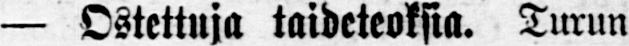— Ostettuja taideteoksia. Turun
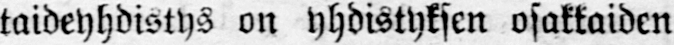taideyhdistys on yhdistyksen osakkaiden
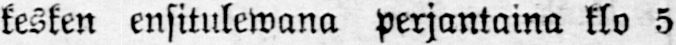kesken ensitulewana perjantaina klo 5
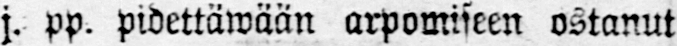j. pp. pidettäwään arpomiseen ostanut
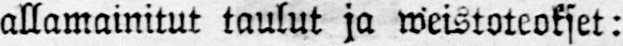allamainitut taulut ja weistoteokset:
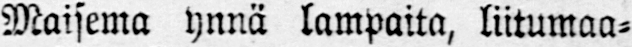Maisema ynnä lampaita, liitumaa-
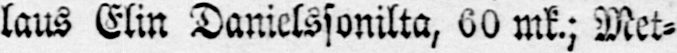laus Elin Danielssonilta, 60 mk.; Met-
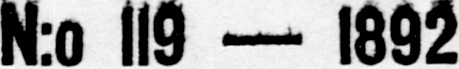N:o 119 — 1892
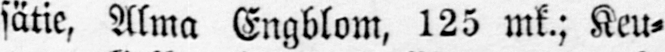sätie, Alma Engblom, 125 mk.; Keu-
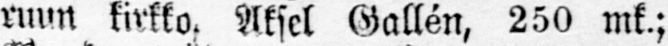ruun kirkko. Aksel Gallén, 250 mk.;
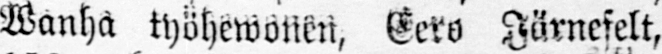Wanha työhewonen, Eero Järnefelt,
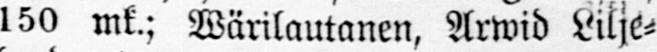150 mk.; Wärilautanen, Arwid Litje-
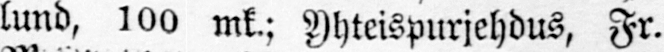lund, 100 mk.: Yhteispurjehdus, Fr.
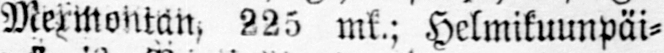Mexmontan, 225 mk.; Helmikuunpäi-
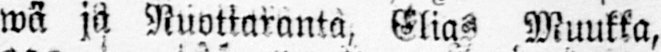wä ja Nuottaranta, Elias Muukka,
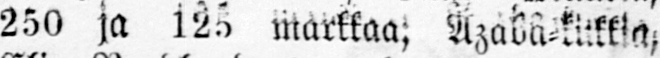250 ja 125 markkaa; Azaba-kukkla,
